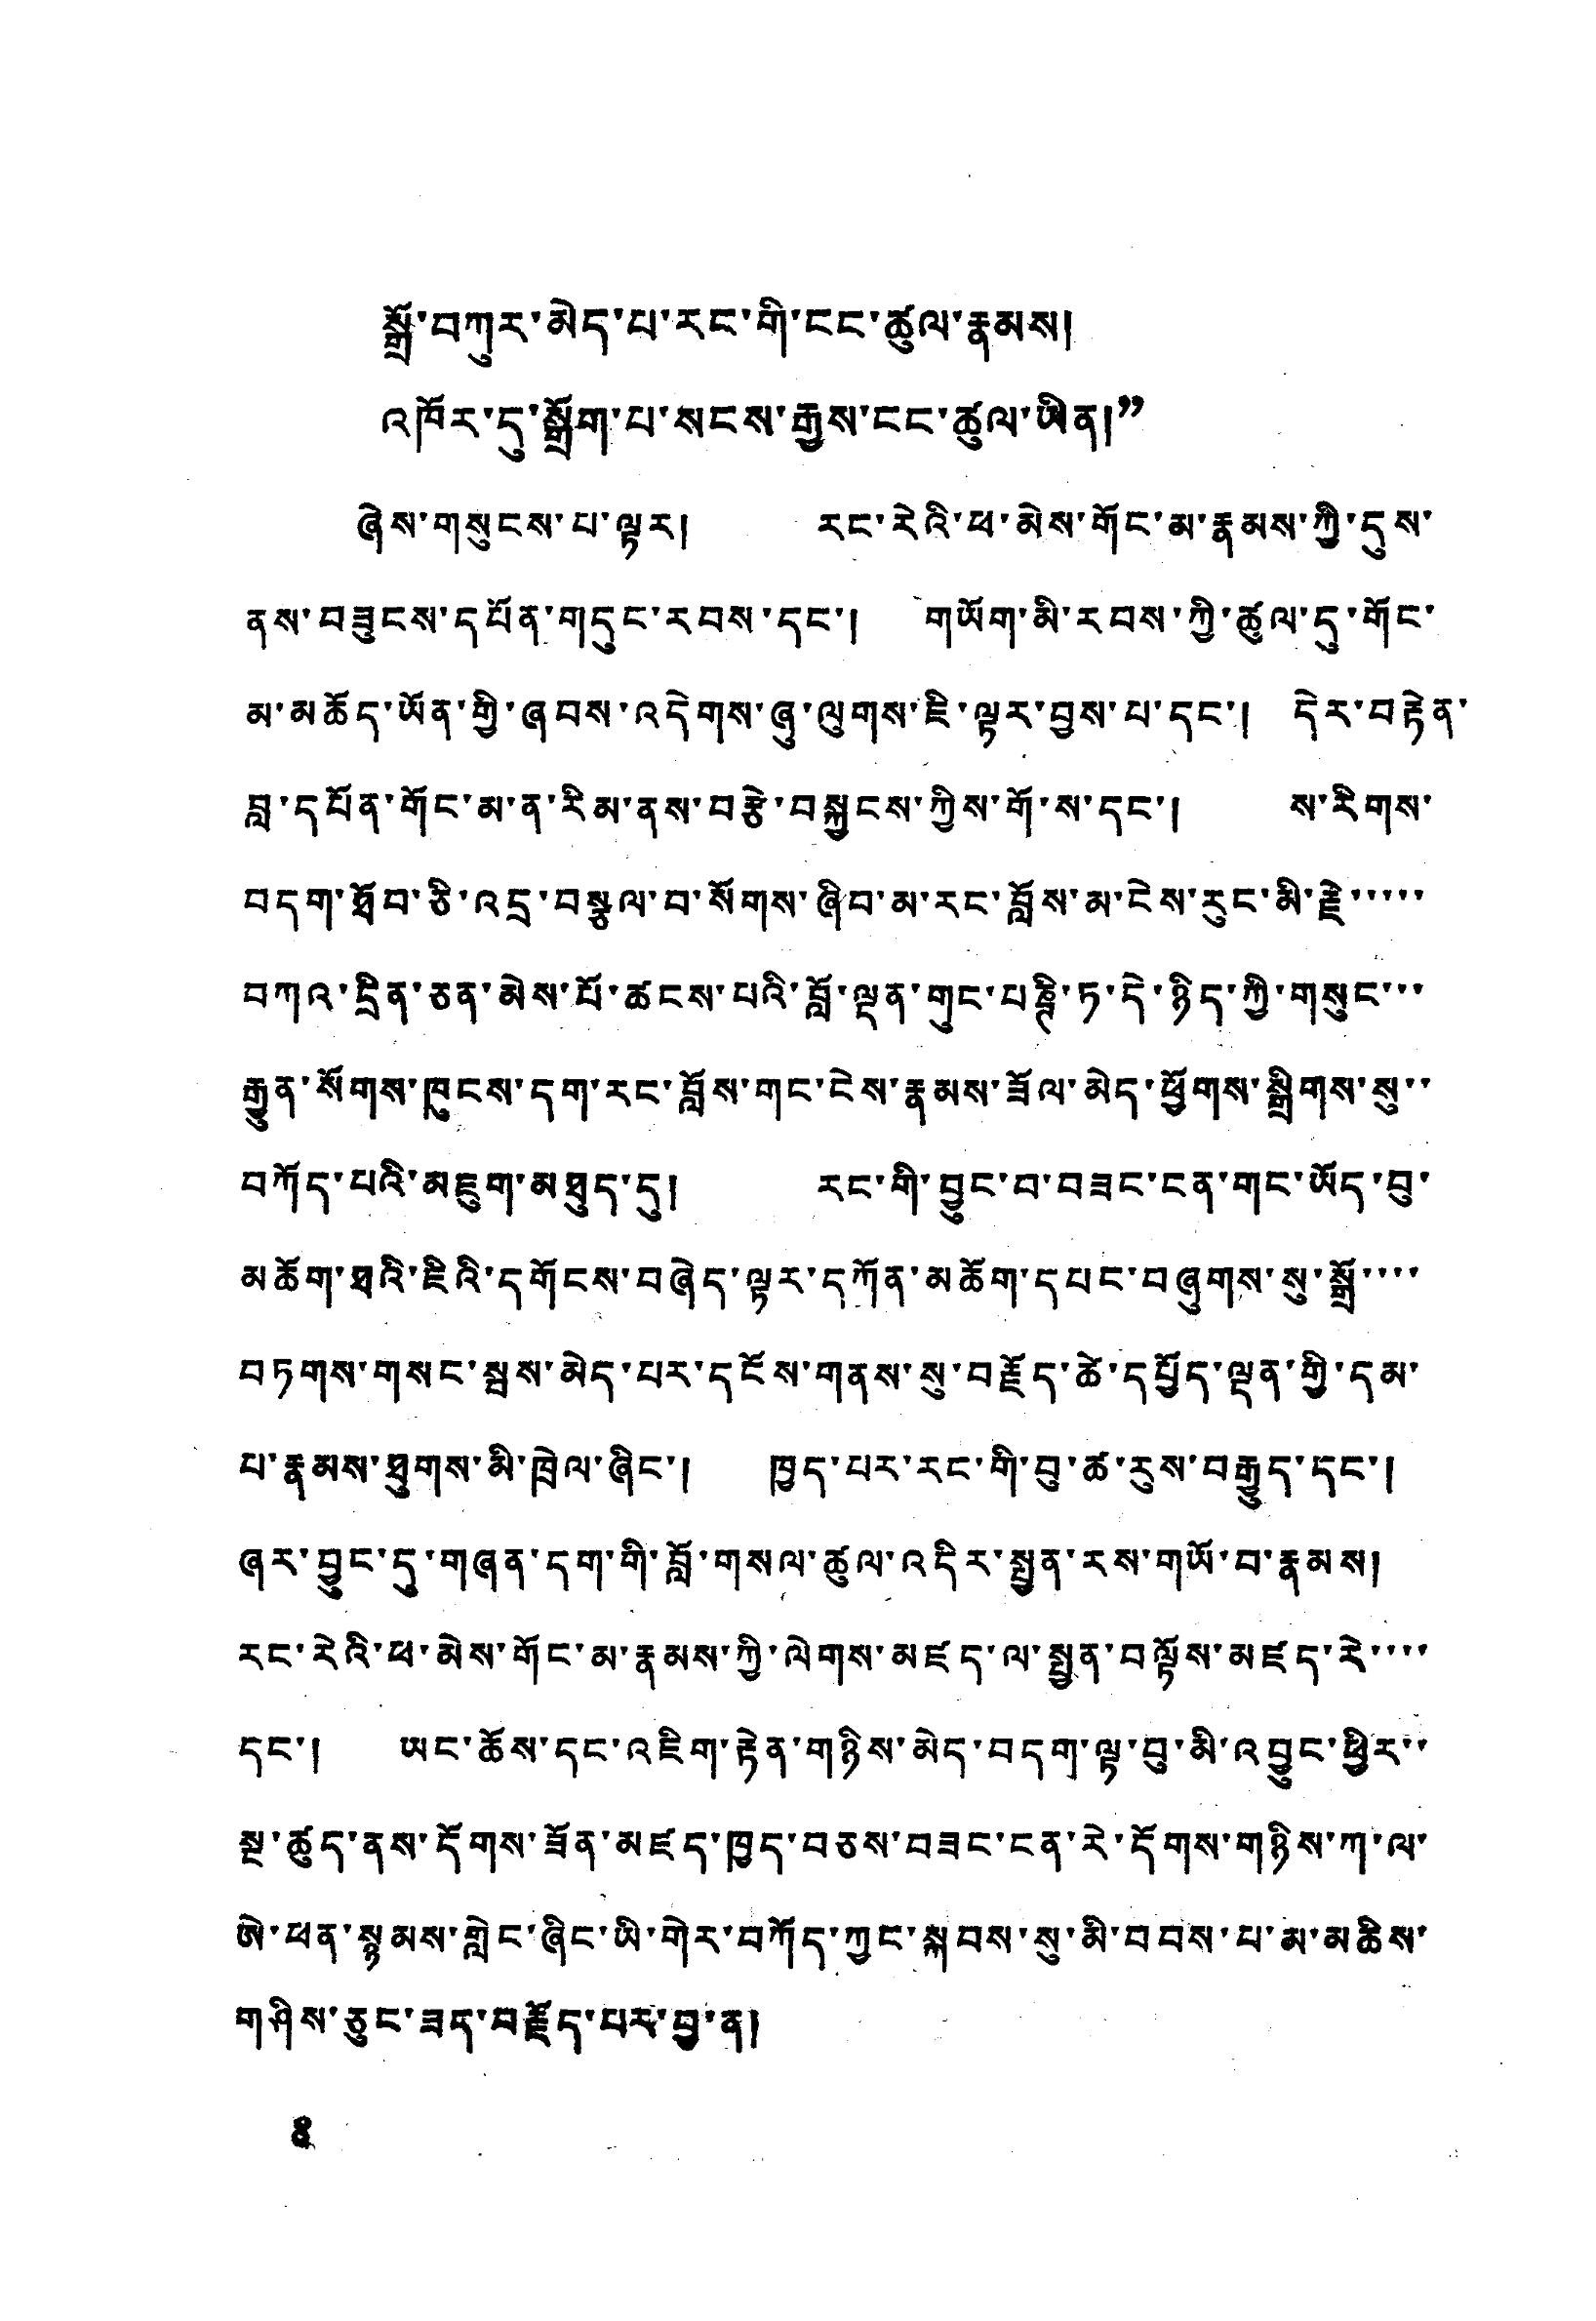སྒྲོ་བཀུར་མེད་པ་རང་གི་ངང་ཚུལ་རྣམས།
འཁོར་དུ་སྒྲོག་པ་སངས་རྒྱས་ངང་ཚུལ་ཡིན།”
ཞེས་གསུངས་པ་ལྟར། རང་རེའི་ཕ་མེས་གོང་མ་རྣམས་ཀྱི་དུས་
ནས་བཟུངས་དཔོན་གདུང་རབས་དང་། གཡོག་མི་རབས་ཀྱི་ཚུལ་དུ་གོང་
མ་མཆོད་ཡོན་གྱི་ཞབས་འདེགས་ཞུ་ལུགས་ཇི་ལྟར་བྱས་པ་དང་། དེར་བརྟེན་
བླ་དཔོན་གོང་མ་ན་རིམ་ནས་བརྩེ་བསྐྱངས་ཀྱིས་གོ་ས་དང་། ས་རིགས་
བདག་ཐོབ་ཅི་འདྲ་བསྩལ་བ་སོགས་ཞིབ་མ་རང་བློས་མ་ངེས་རུང་མི་རྗེ་་་་་
བཀའ་དྲིན་ཅན་མེས་པོ་ཚངས་པའི་བློ་ལྡན་གུང་པཎྚི་ཏ་དེ་ཉིད་ཀྱི་གསུང་་་
རྒྱུན་སོགས་ཁུངས་དག་རང་བློས་གང་ངེས་རྣམས་ཟོལ་མེད་ཕྱོགས་སྒྲིགས་སུ་་
བཀོད་པའི་མཇུག་མཐུད་དུ་། རང་གི་བྱུང་བ་བཟང་ངན་གང་ཡོད་བུ་
མཆོག་ཐའི་ཇིའི་དགོངས་བཞེད་ལྟར་དཀོན་མཆོག་དཔང་བཞུགས་སུ་སྒྲོ་་་་
བཏགས་གསང་སྦས་མེད་པར་དངོས་གནས་སུ་བརྗོད་ཚེ་དཔྱོད་ལྡན་གྱི་དམ་
པ་རྣམས་ཐུགས་མི་ཁྲེལ་ཞིང་། ཁྱད་པར་རང་གི་བུ་ཚ་རུས་རྒྱུད་དང་།
ཞར་བྱུང་དུ་གཞན་དག་གི་བློ་གསལ་ཚུལ་འདིར་སྤྱན་རས་གཡོ་བ་རྣམས།
རང་རེས་ཕ་མེས་གོང་མ་རྣམས་ཀྱི་ལེགས་མཛད་ལ་སྤྱན་བལྟོས་མཛད་རེ་་་་
དང་། ཡང་ཆོས་དང་འཇིག་རྟེན་གཉིས་མེད་བདག་ལྟ་བུ་མི་འབྱུང་ཕྱིར་་
སྔ་ཚུད་ནས་དོགས་ཟོན་མཛད་ཁྱད་བཅས་བཟང་ངན་རེ་དོགས་གཉིས་ཀ་ལ་
ཨེ་ཕན་སྙམས་གླེང་ཞིང་ཡི་གེར་བཀོད་ཀྱང་སྐབས་སུ་མི་བབས་པ་མ་མཆིས་
གཤིས་ཅུང་ཟད་བརྗོད་པར་བྱ་ན།
8
